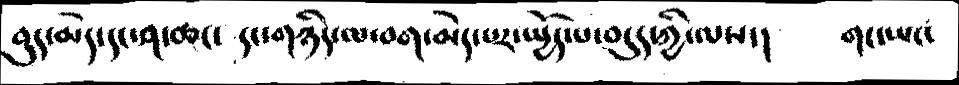བུད་མེད་དང་ཤ་ཆང་  དང་གཉིད་ལ་བག་མེད་པར་སྤྱོད་པ་བདུད་ཀྱི་ལས་།  གང་ཡང་
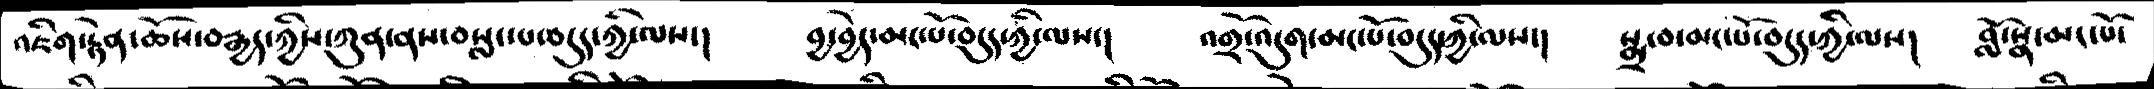འཇིག་རྟེན་ཆོས་བརྒྱད་ཀྱིས་ཀུན་ནས་བསླང་པ་བདུད་ཀྱི་ལས་།  བྱ་བྱེད་མང་པོ་བདུད་ཀྱི་ལས་།  འགྲོ་འདུག་མང་པོ་བདུད་ཀྱི་ལས་།  སྨྲ་བ་མང་པོ་བདུད་ཀྱི་ལས་།  བློ་སྣ་མང་པོ་
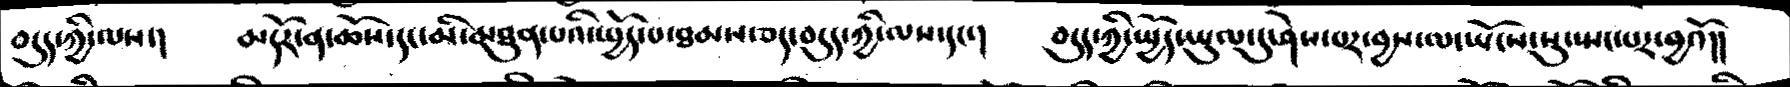བདུད་ཀྱི་ལས་།  མདོར་ན་ཆོས་དང་མི་མཐུན་པའི་སྤྱོད་པ་ཐམས་ཅད་བདུད་ཀྱི་ལས་དང་།  བདུད་ཀྱི་སྤྱོད་ཡུལ་དུ་ཤེས་པར་བྱས་ལ་ཡོངས་སུ་སྤང་པར་བྱའོ།།
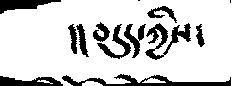།།བདུད་ཀྱིས་
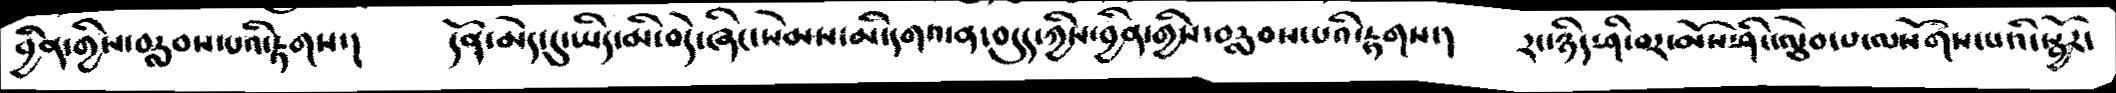བྱིན་གྱིས་བརླབས་པའི་རྟགས་།   དོན་མེད་དུ་ཡིད་མི་བདེ་ཞིང་སེམས་མི་དགའ་ན་བདུད་ཀྱིས་བྱིན་གྱིས་བརླབས་པའི་རྟགས་།   རང་ཉིད་ཤི་བར་མོས་ཤིང་ལྕེབ་པ་ལསོགས་པའི་སྦྱོར་
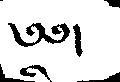༄༅།
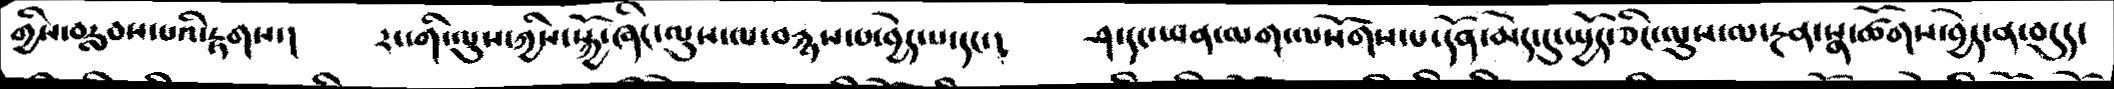གྱིས་བརླབས་པའི་རྟགས་།   རང་གི་ལུས་ཀྱིས་སྐྱོ་ཞིང་ལུས་ལ་བརྙས་པ་བྱེད་པ་དང་།   ཤ་དང་ཡན་ལག་ལསོགས་པ་དོན་མེད་དུ་སྤྱོད་ཅིང་ལུས་ལ་རྔན་སྣ་ཚོགས་བྱེད་ན་བདུད་
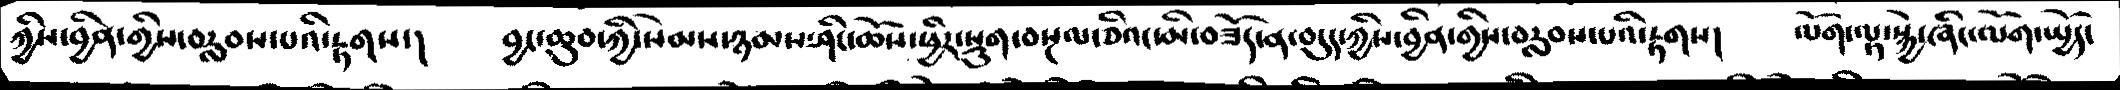ཀྱིས་བྱིན་གྱིས་བརླབས་པའི་རྟགས་།    བྱང་ཆུབ་ཀྱི་སེམས་ཉམས་ཤིང་ཆོས་ཕྱིར་སྡུག་བསྔལ་ཅིའང་མི་བཟོད་ན་བདུད་ཀྱིས་བྱིན་གྱིས་བརླབས་པའི་རྟགས།   ལོག་ལྟ་སྐྱེ་ཞིང་ལོག་སྤྱོད་
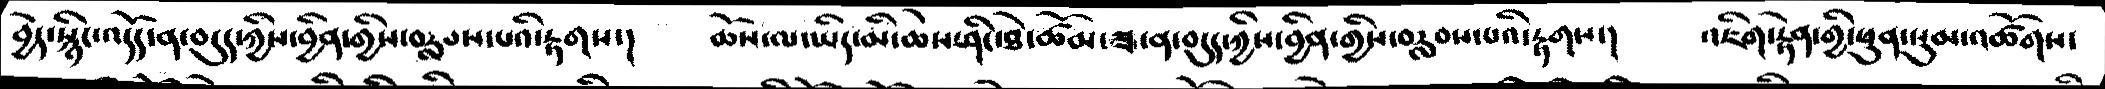བྱེད་སྙིང་འདོད་ན་བདུད་ཀྱིས་བྱིན་གྱིས་བརླབས་པའི་རྟགས་།    ཆོས་ལ་ཡིད་མི་ཆེས་ཤིང་ཐེ་ཚོམ་ཟ་ན་བདུད་ཀྱིས་བྱིན་གྱིས་བརླབས་པའི་རྟགས་།   འཇིག་རྟེན་གྱི་ཕུན་སུམ་འཚོགས་
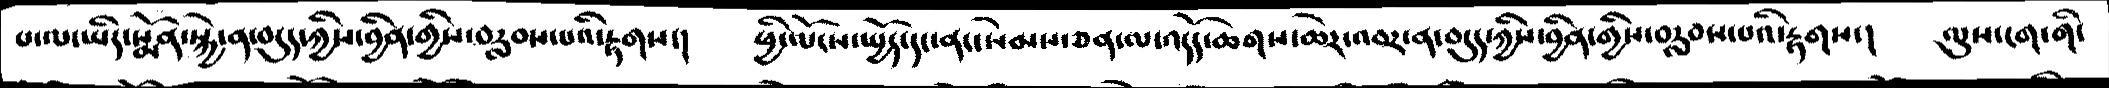པ་ལ་ཡིད་སྨོན་སྐྱེ་ན་བདུད་ཀྱིས་བྱིན་གྱིས་བརླབས་པའི་རྟགས་།    ཕྱི་ལོངས་སྤྱོད་དང་ནང་སེམས་ཅན་ལ་འདོད་ཆགས་ཆེར་འབར་ན་བདུད་ཀྱིས་བྱིན་གྱིས་བརླབས་པའི་རྟགས་།   ལུས་ངག་གི་
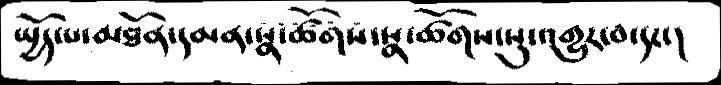སྤྱོད་པ་མཐོན་དམན་སྣ་ཚོགས་སྣ་ཚོགས་སུ་འགྱུར་བ་དང་།
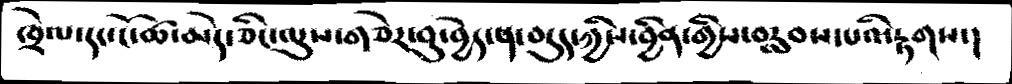ཁྲེལ་དང་ངོ་ཚ་མེད་ཅིང་ལུས་གཅེར་བུ་བྱེད་ན་བདུད་ཀྱིས་བྱིན་གྱིས་བརླབས་པའི་རྟགས་།
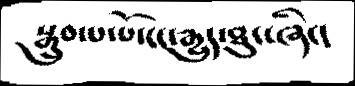སྒྲུབ་པ་པོ་ངང་རྒྱུད་ཐུང་ཞིང།
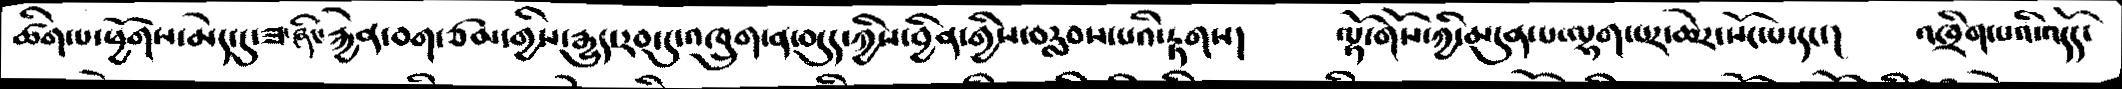ཚིག་པ་ཕྱོགས་མེད་དུ་ཟ་ཞིང་རྐྱེན་བག་ཙམ་གྱིས་རྒྱུད་རབ་དུ་འཁྲུག་ན་བདུད་ཀྱིས་བྱིན་གྱིས་བརླབས་པའི་རྟགས།   ལྟོ་གོས་ཀྱི་མདུན་པ་ལྷག་པར་ཆེར་སོང་པ་དང་།   འཁྲིག་པའི་འདོད་
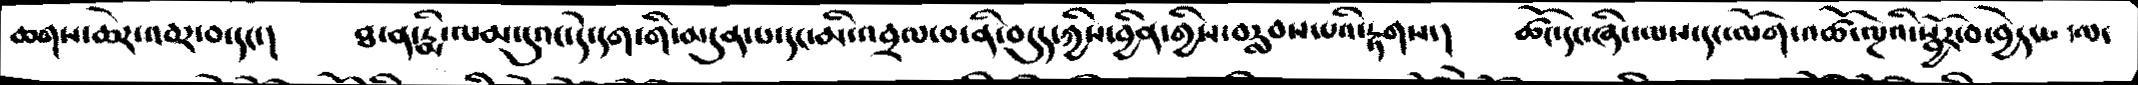ཆགས་ཆེར་འབར་བ་དང་།   ཐ་ན་རྨི་ལམ་དུའང་དེ་དག་གི་མདུན་པ་དང་མི་འབྲལ་བ་ནི་བདུད་ཀྱིས་བྱིན་གྱིས་བརླབས་པའི་རྟགས་།   ཚོང་དང་ཞིང་ལས་དང་ལོག་འཚོ་ལྔའི་སྦྱོར་བ་བྱེད་པ་ལ་
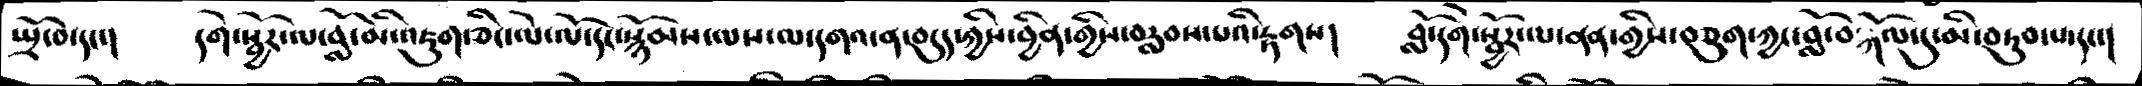སྤྲོ་བ་དང་།    དགེ་སྦྱོར་ལ་བློ་མི་འཇུག་ཅིང་ལེ་ལོ་དང་སྙོམས་ལས་ལ་དགའ་ན་བདུད་ཀྱིས་བྱིན་གྱིས་བརླབས་པའི་རྟགས།    བློ་དགེ་སྦྱོར་ལ་ནན་གྱིས་བཅུག་ཀྱང་བློ་བསྐོལ་དུ་མི་བཏུབ་པ་དང་།
